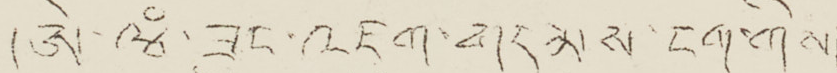།ཨེ་ལཾ་ཟུང་འཇུག་གདམས་ངག་གིས།
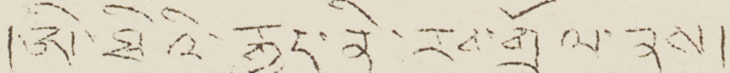།ཨི་ཐིའི་རྒྱུད་ནི་རང་གྲོལ་ནས།
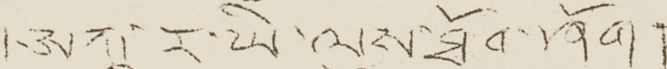།ཨཀྰ་ར་ཡི་ལུས་ཐོབ་ཤོག།།
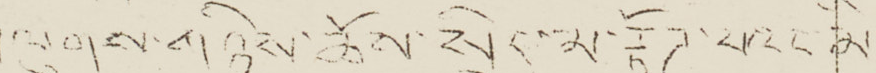།ལུགས་གཉིས་ཆོས་སྲིད་མ་རྟོཌ་པའང་མིན
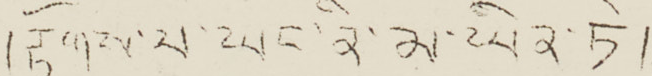།རྟོགས་པ་ཡང་ནི་མ་ཡིན་ཏེ།
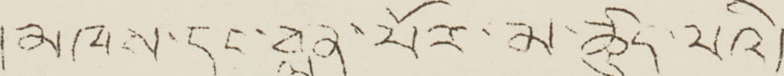།མཁས་དང་བླུན་པོར་མ་ཚུད་པའི།
